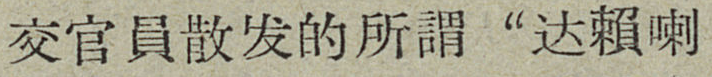交官員散发的所謂“达賴喇
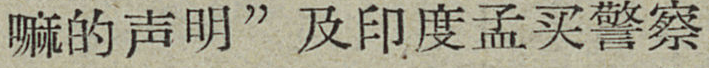嘛的声明”及印度孟买警察
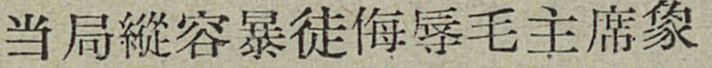当局縱容暴徒侮辱毛主席象
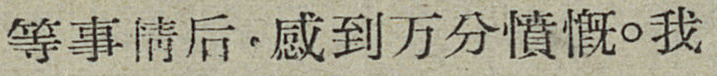等事情后，感到万分憤慨。我
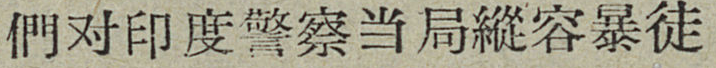們对印度警察当局縱容暴徒
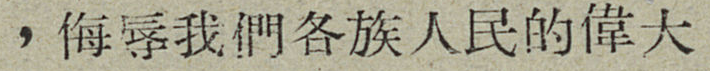，侮辱我們各族人民的偉大
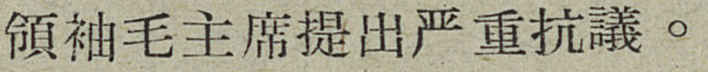領袖毛主席提出严重抗議。
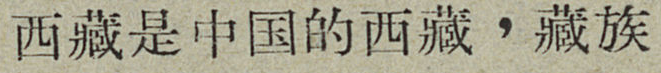西藏是中国的西藏，藏族
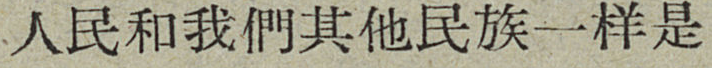人民和我們其他民族一样是
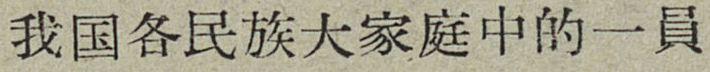我国各民族大家庭中的一員
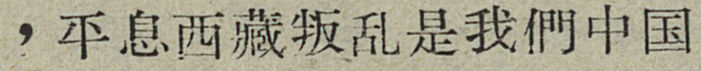，平息西藏叛乱是我們中国
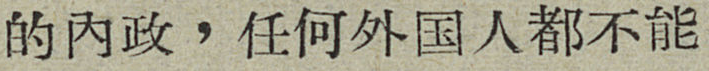的内政，任何外国人都不能
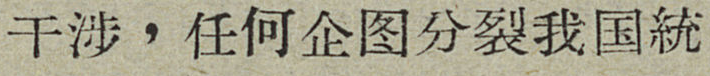干涉，任何企图分裂我国統
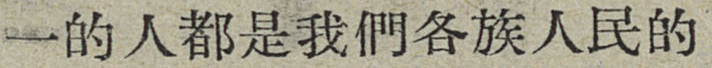一的人都是我們各族人民的
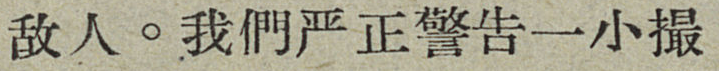敌人。我們严正警告一小撮
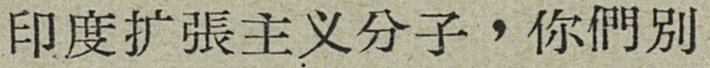印度扩張主义分子，你們别
